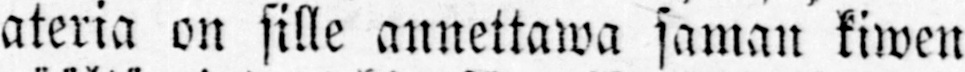ateria on sille annettawa saman kiwen
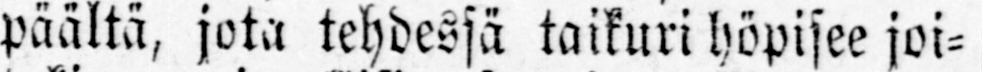päältä, jota tehdessä taikuri höpisee joi-
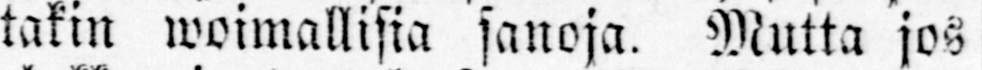takin woimallisia sanoja. Mutta jos
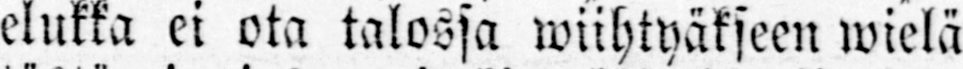elukka ei ota talossa wiihtyäkseen wielä
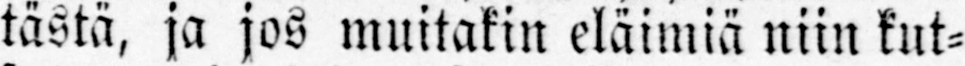tästä, ja jos muitakin eläimiä niin kut-
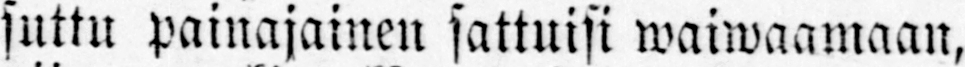suttu painajainen sattuisi waiwaamaan,
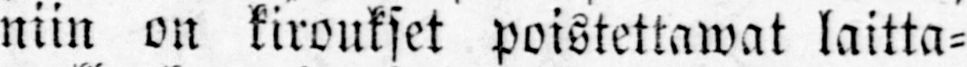niin on kiroukset poistettawat laitta-
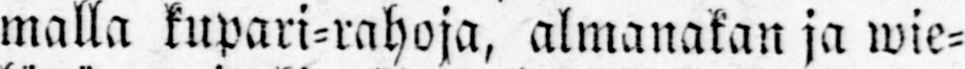malla kupari-rahoja, almanakan ja wie-
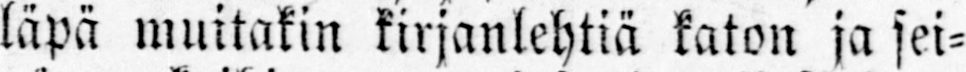läpä muitakin kirjanlehtiä katon ja sei-
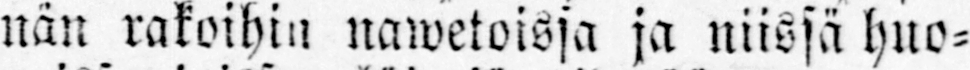nän rakoihin nawetoissa ja niissä huo-
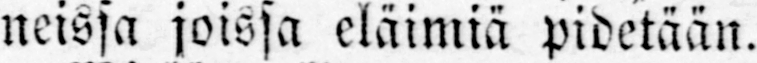neissa joissa eläimiä pidetään.
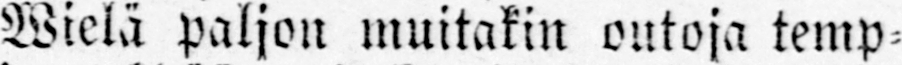Wielä paljon muitakin outoja temp-
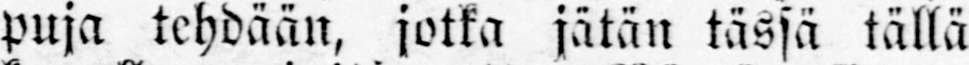puja tehdään, jotka jätän tässä tällä
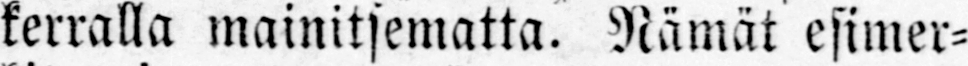kerralla mainitsematta. Nämät esimer-
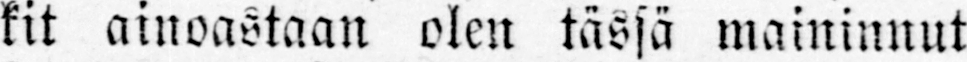kit ainoastaan olen tässä maininnut
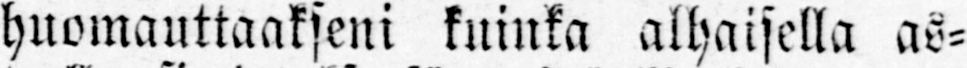huomauttaakseni kuinka alhaisella as-
